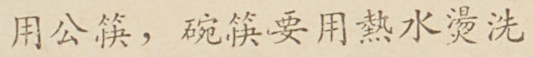用公筷，碗筷要用熱水燙洗
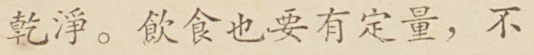乾淨。飲食也要有定量，不
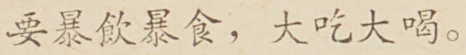要暴飲暴食，大吃大喝。
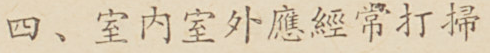四、室內室外應經常打掃
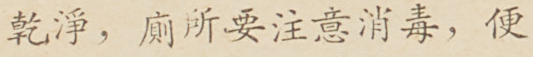乾淨，廁所要注意消毒，便
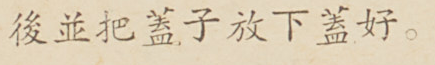後並把蓋子放下蓋好。
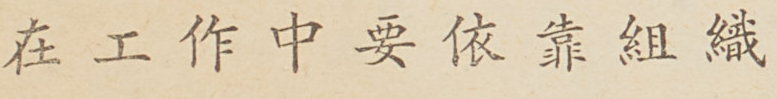在 工 作 中 要 依 靠 組 織
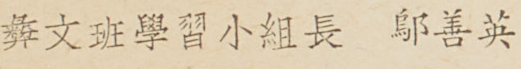彝文班學習小組長 鄔善英
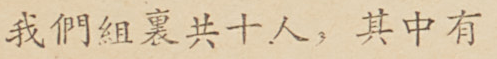我們組裏共十人，其中有
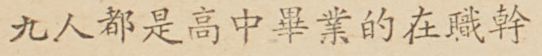九人都是高中畢業的在職幹
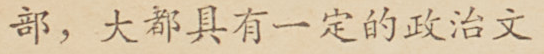部，大都具有一定的政治文
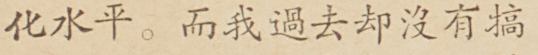化水平。而我過去並沒有搞
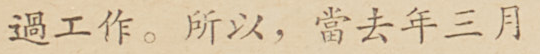過工作。所以，當去年三月
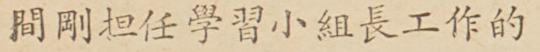間剛担任學習小組長工作的
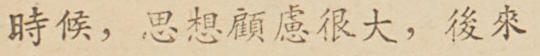時候，思想顧慮很大，後來
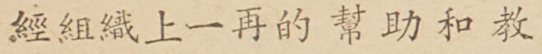經組織上一再的幫助和教
